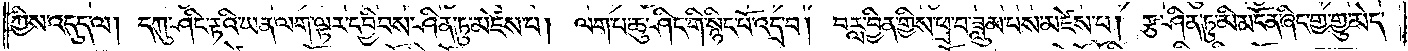ཀྱིས་འདུད་ལ། དཀུ་ཤིང་རྟའི་ཡན་ལག་ལྟར་དབྱིབས་ཤིན་ཏུ་མཛེས་པ། ལག་པ་ཆུ་ཤིང་གི་སྙིང་པོ་འདྲ་བ། བརླ་བྱིན་གྱིས་ཕྲ་བ་ཟླུམ་པས་མཛེས་པ། རྩ་ཤིན་ཏུ་མི་མངོན་ཞིང་གྱ་གྱུ་མེད་
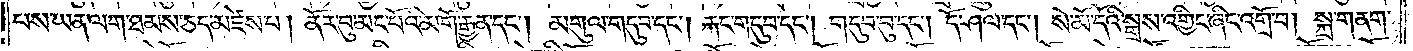པས་ཡན་ལག་ཐམས་ཅད་མཛེས་པ། ནོར་བུ་མང་པོའི་མགོ་རྒྱན་དང༌། མགུལ་གདུབ་དང༌། རྐང་གདུབ་དང༌། གདུབ་བུ་དང༌། དོ་ཤལ་དང༌། སེ་མོ་དོའི་སྒྲས་འགྱིང་ཞིང་འགྲོ་བ། སྐྲ་གནག་
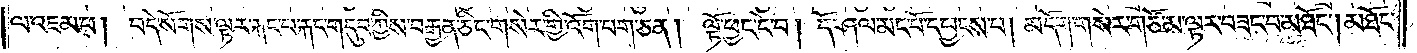ལ་འཇམ་པ། བདེ་སོགས་ལྟར་རྐང་པ་རྐང་གདུབ་ཀྱིས་བརྒྱན་ཅིང་གསེར་གྱི་འོག་པག་ཅན། ལྟོ་ཕྱང་དེ་བ། དོ་ཤལ་མང་པོ་དཔྱངས་པ། མདོག་གསེར་གཙོ་མ་ལྟར་བཟང་བ་མཐོང༌། མཐོང་
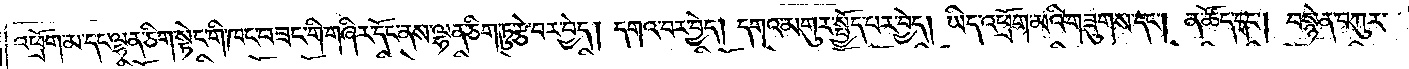འཕྲོག་མ་དང་ལྷན་ཅིག་སྟེང་གི་ཁང་བཟང་གི་གཞིར་དོང་ནས་ལྷན་ཅིག་ཏུ་རྩེ་བར་བྱེད། དགའ་བར་བྱེད། དགའ་མགུར་སྤྱོད་པར་བྱེད། ཡིད་འཕྲོག་མའི་གཟུགས་དང༌། ན་ཚོད་དང༌། བསྙེན་བཀུར་
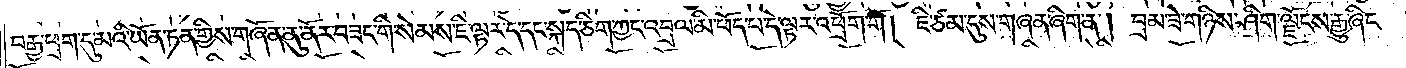བརྒྱ་ཕྲག་དུ་མའི་ཡོན་ཏན་གྱིས་གཞོན་ནུ་ནོར་བཟང་གི་སེམས་ཇི་ལྟར་དེ་དང་སྐད་ཅིག་ཀྱང་འབྲལ་མི་ཕོད་པ་དེ་ལྟར་འཕྲོག་གོ། ཇི་ཙམ་དུས་གཞན་ཞིག་ན། བྲམ་ཟེ་གཉིས་ཤིག་ལྗོངས་རྒྱུ་ཞིང་
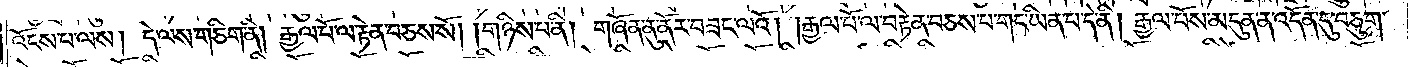འོངས་པ་ལས། དེ་ལས་གཅིག་ནི། རྒྱལ་པོ་ལ་རྟེན་བཅས་སོ། །གཉིས་པ་ནི། གཞོན་ནུ་ནོར་བཟང་ལའོ། །རྒྱལ་པོ་ལ་བརྟེན་བཅས་པ་གང་ཡིན་པ་དེ་ནི། རྒྱལ་པོས་མདུན་ན་འདོན་དུ་བཅུག་
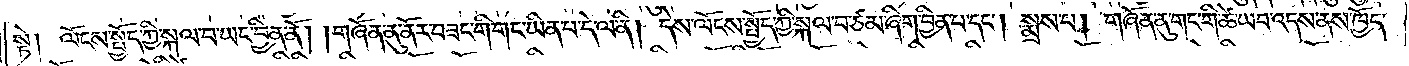སྟེ། ལོངས་སྤྱོད་ཀྱི་སྐལ་བ་ཡང་བྱིན་ནོ། །གཞོན་ནུ་ནོར་བཟང་གི་གང་ཡིན་པ་དེ་ལ་ནི། དེས་ལོངས་སྤྱོད་ཀྱི་སྐལ་བ་ཙམ་ཞིག་བྱིན་པ་དང༌། སྨྲས་པ། གཞོན་ནུ་གང་གི་ཚེ་ཡབ་འདས་ནས་ཁྱོད་
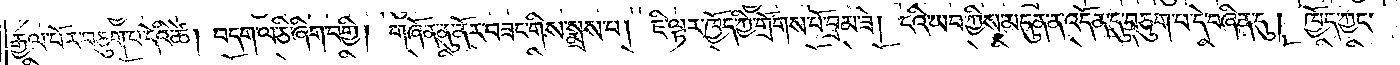རྒྱལ་པོར་བཅུག་པ་དེའི་ཚེ། བདག་ལ་ཅི་ཞིག་བགྱི། གཞོན་ནུ་ནོར་བཟང་གིས་སྨྲས་པ། ཇི་ལྟར་ཁྱོད་ཀྱི་གྲོགས་པོ་བྲམ་ཟེ། ངའི་ཡབ་ཀྱིས་མདུན་ན་འདོན་དུ་བཅུག་པ་དེ་བཞིན་དུ། ཁྱོད་ཀྱང་
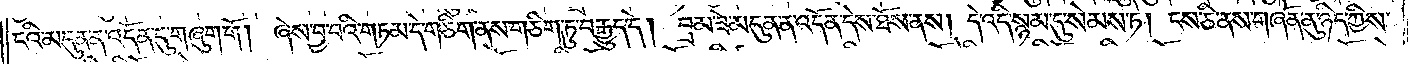ངའི་མདུན་ན་འདོན་དུ་གཞུག་གོ། ཞེས་བྱ་བའི་གཏམ་དེ་གཅིག་ནས་གཅིག་ཏུ་བརྒྱུད་དེ། བྲམ་ཟེ་མདུན་ན་འདོན་དེས་ཐོས་ནས། དེ་འདི་སྙམ་དུ་སེམས་ཏེ། ངས་ཅི་ནས་གཞོན་ནུ་ཉིད་ཀྱིས་
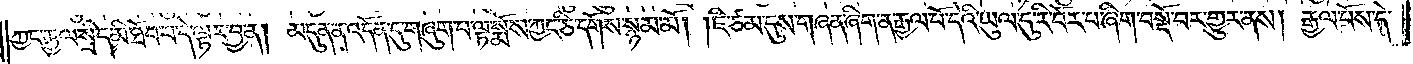ཀྱང་རྒྱལ་སྲིད་མི་ཐོབ་པ་དེ་ལྟར་བྱ་ན། མདུན་ན་འདོན་དུ་གཞུག་པ་ལྟ་སྨོས་ཀྱང་ཅི་དགོས་སྙམ་མོ། །ཇི་ཙམ་དུས་གཞན་ཞིག་ན་རྒྱལ་པོ་དེའི་ཡུལ་དུ་རི་བོར་པ་ཞིག་བསྔོ་བར་གྱུར་ནས། རྒྱལ་པོས་དེ་
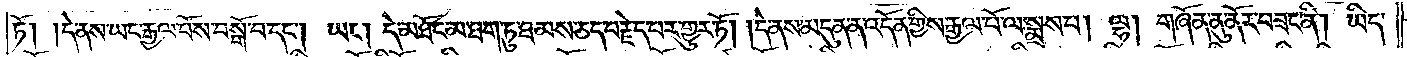ཏོ། །དེ་ནས་ཡང་རྒྱལ་པོས་བསྒོ་བ་དང༌། ཡང༌། དེ་མཐོང་མ་ཐག་ཏུ་ཐམས་ཅད་བརྗེད་པར་གྱུར་ཏོ། །དེ་ནས་མདུན་ན་འདོན་གྱིས་རྒྱལ་པོ་ལ་སྨྲས་པ། ལྷ། གཞོན་ནུ་ནོར་བཟང་ནི། ཡིད་
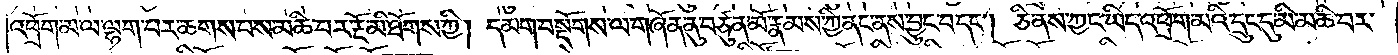འཕྲོག་མ་ལ་ལྷག་པར་ཆགས་པས་མཆི་བར་རྔོ་མི་ཐོགས་ཀྱི། དམག་བསྡོགས་ལ་གཞོན་ནུ་བཙུན་མོ་རྣམས་ཀྱི་ནང་ནས་བྱུང་བ་དང༌། ཅི་ནས་ཀྱང་ཡིད་འཕྲོག་མའི་དྲུང་དུ་མི་མཆི་བར་
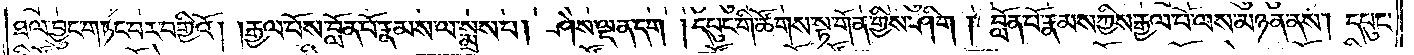ཐལ་བྱུང་གཏང་བར་བགྱིའོ། །རྒྱལ་པོས་བློན་པོ་རྣམས་ལ་སྨྲས་པ། ཤེས་ལྡན་དག །དཔུང་གི་ཚོགས་སྟ་གོན་གྱིས་ཤིག །བློན་པོ་རྣམས་ཀྱི་རྒྱལ་པོ་ལས་མཉན་ནས། དཔུང་
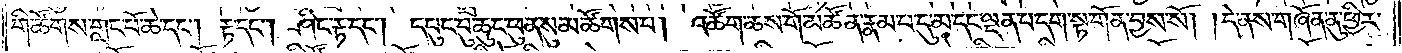གི་ཚོགས་གླང་པོ་ཆེ་དང༌། རྟ་དང༌། ཤིང་རྟ་དང༌། དཔུང་བུ་ཆུང་ཕུན་སུམ་ཚོགས་པ། འཚོག་ཆས་གོ་མཚོན་རྣམ་པ་དུ་མ་དང་ལྡན་པ་དག་སྟ་གོན་བྱས་སོ། །དེ་ནས་གཞོན་ནུ་ཕྱིར་
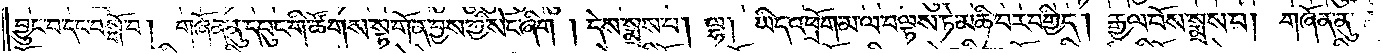བྱུང་བ་དང་བསྒོ་བ། གཞོན་ནུ་དཔུང་གི་ཚོགས་སྟ་གོན་བྱས་ཀྱི་སོང་ཞིག །དེས་སྨྲས་པ། ལྷ། ཡིད་འཕྲོག་མ་ལ་བལྟས་ཏེ་མཆི་བར་བགྱིད། རྒྱལ་པོས་སྨྲས་པ། གཞོན་ནུ་
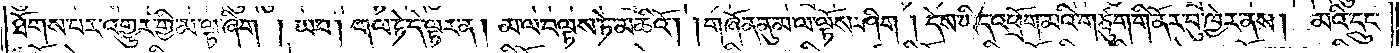ཐོགས་པར་འགྱུར་གྱི་མ་ལྟ་ཞིག །ཡབ། གལ་ཏེ་དེ་ལྟར་ན། མ་ལ་བལྟས་ཏེ་མཆིའོ། །གཞོན་ནུ་མ་ལ་ལྟོས་ཤིག །དེས་ཡིད་འཕྲོག་མའི་གཙུག་གི་ནོར་བུ་ཁྱེར་ནས། མའི་དྲུང་
